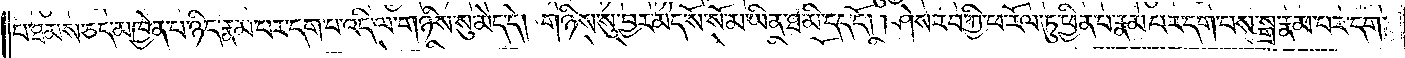པ་ཐམས་ཅད་མཁྱེན་པ་ཉིད་རྣམ་པར་དག་པ་འདི་ལ་གཉིས་སུ་མེད་དེ། གཉིས་སུ་བྱར་མེད་སོ་སོ་མ་ཡིན་ཐ་མི་དད་དོ། །ཤེས་རབ་ཀྱི་ཕ་རོལ་ཏུ་ཕྱིན་པ་རྣམ་པར་དག་པས་སྒྲ་རྣམ་པར་དག་
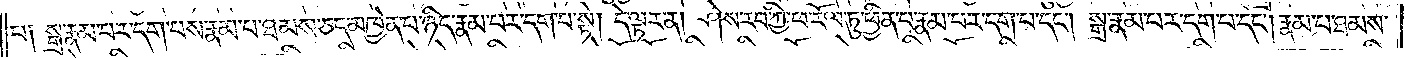པ། སྒྲ་རྣམ་པར་དག་པས་རྣམ་པ་ཐམས་ཅད་མཁྱེན་པ་ཉིད་རྣམ་པར་དག་པ་སྟེ། དེ་ལྟར་ན། ཤེས་རབ་ཀྱི་ཕ་རོལ་ཏུ་ཕྱིན་པ་རྣམ་པར་དག་པ་དང༌། སྒྲ་རྣམ་པར་དག་པ་དང༌། རྣམ་པ་ཐམས་
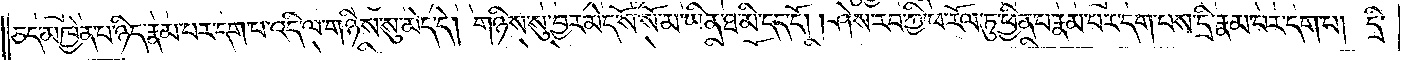ཅད་མཁྱེན་པ་ཉིད་རྣམ་པར་དག་པ་འདི་ལ་གཉིས་སུ་མེད་དེ། གཉིས་སུ་བྱར་མེད་སོ་སོ་མ་ཡིན་ཐ་མི་དད་དོ། །ཤེས་རབ་ཀྱི་ཕ་རོལ་ཏུ་ཕྱིན་པ་རྣམ་པར་དག་པས་དྲི་རྣམ་པར་དག་པ། དྲི་
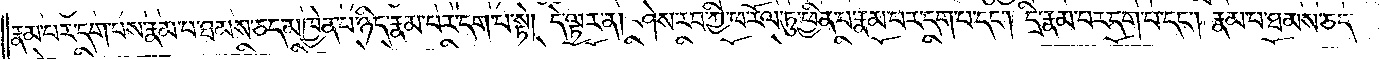རྣམ་པར་དག་པས་རྣམ་པ་ཐམས་ཅད་མཁྱེན་པ་ཉིད་རྣམ་པར་དག་པ་སྟེ། དེ་ལྟར་ན། ཤེས་རབ་ཀྱི་ཕ་རོལ་ཏུ་ཕྱིན་པ་རྣམ་པར་དག་པ་དང༌། དྲི་རྣམ་པར་དག་པ་དང༌། རྣམ་པ་ཐམས་ཅད་
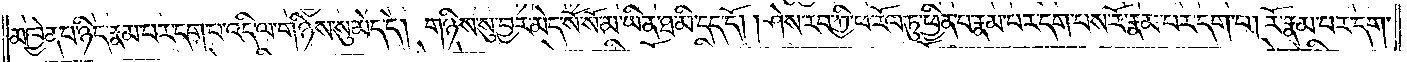མཁྱེན་པ་ཉིད་རྣམ་པར་དག་པ་འདི་ལ་གཉིས་སུ་མེད་དེ། གཉིས་སུ་བྱར་མེད་སོ་སོ་མ་ཡིན་ཐ་མི་དད་དོ། །ཤེས་རབ་ཀྱི་ཕ་རོལ་ཏུ་ཕྱིན་པ་རྣམ་པར་དག་པས་རོ་རྣམ་པར་དག་པ། རོ་རྣམ་པར་དག་
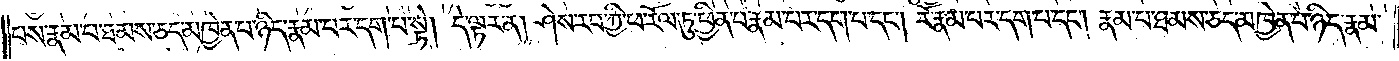པས་རྣམ་པ་ཐམས་ཅད་མཁྱེན་པ་ཉིད་རྣམ་པར་དག་པ་སྟེ། དེ་ལྟར་ན། ཤེས་རབ་ཀྱི་ཕ་རོལ་ཏུ་ཕྱིན་པ་རྣམ་པར་དག་པ་དང༌། རོ་རྣམ་པར་དག་པ་དང༌། རྣམ་པ་ཐམས་ཅད་མཁྱེན་པ་ཉིད་རྣམ་
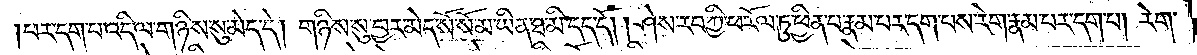པར་དག་པ་འདི་ལ་གཉིས་སུ་མེད་དེ། གཉིས་སུ་བྱར་མེད་སོ་སོ་མ་ཡིན་ཐ་མི་དད་དོ། །ཤེས་རབ་ཀྱི་ཕ་རོལ་ཏུ་ཕྱིན་པ་རྣམ་པར་དག་པས་རེག་རྣམ་པར་དག་པ། རེག་
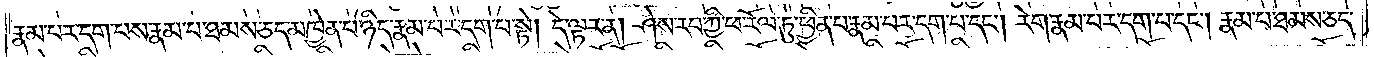རྣམ་པར་དག་པས་རྣམ་པ་ཐམས་ཅད་མཁྱེན་པ་ཉིད་རྣམ་པར་དག་པ་སྟེ། དེ་ལྟར་ན། ཤེས་རབ་ཀྱི་ཕ་རོལ་ཏུ་ཕྱིན་པ་རྣམ་པར་དག་པ་དང༌། རེག་རྣམ་པར་དག་པ་དང༌། རྣམ་པ་ཐམས་ཅད་
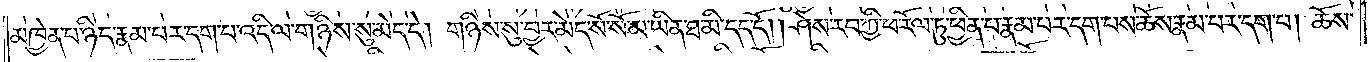མཁྱེན་པ་ཉིད་རྣམ་པར་དག་པ་འདི་ལ་གཉིས་སུ་མེད་དེ། གཉིས་སུ་བྱར་མེད་སོ་སོ་མ་ཡིན་ཐ་མི་དད་དོ། །ཤེས་རབ་ཀྱི་ཕ་རོལ་ཏུ་ཕྱིན་པ་རྣམ་པར་དག་པས་ཆོས་རྣམ་པར་དག་པ། ཆོས་
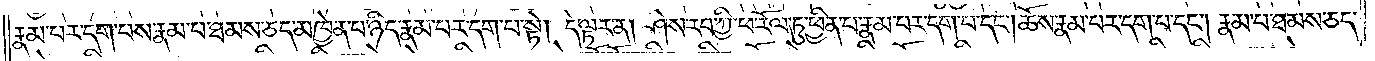རྣམ་པར་དག་པས་རྣམ་པ་ཐམས་ཅད་མཁྱེན་པ་ཉིད་རྣམ་པར་དག་པ་སྟེ། དེ་ལྟར་ན། ཤེས་རབ་ཀྱི་ཕ་རོལ་ཏུ་ཕྱིན་པ་རྣམ་པར་དག་པ་དང༌། ཆོས་རྣམ་པར་དག་པ་དང༌། རྣམ་པ་ཐམས་ཅད་
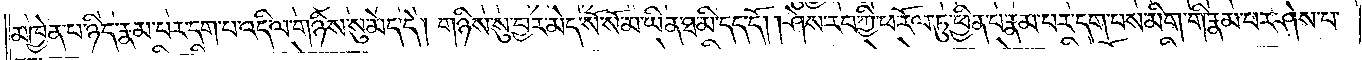མཁྱེན་པ་ཉིད་རྣམ་པར་དག་པ་འདི་ལ་གཉིས་སུ་མེད་དེ། གཉིས་སུ་བྱར་མེད་སོ་སོ་མ་ཡིན་ཐ་མི་དད་དོ། །ཤེས་རབ་ཀྱི་ཕ་རོལ་ཏུ་ཕྱིན་པ་རྣམ་པར་དག་པས་མིག་གི་རྣམ་པར་ཤེས་པ་
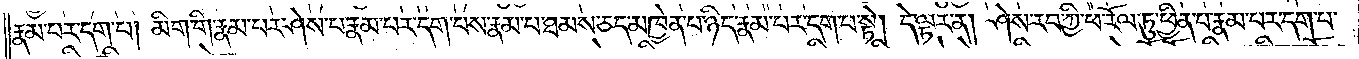རྣམ་པར་དག་པ། མིག་གི་རྣམ་པར་ཤེས་པ་རྣམ་པར་དག་པས་རྣམ་པ་ཐམས་ཅད་མཁྱེན་པ་ཉིད་རྣམ་པར་དག་པ་སྟེ། དེ་ལྟར་ན། ཤེས་རབ་ཀྱི་ཕ་རོལ་ཏུ་ཕྱིན་པ་རྣམ་པར་དག་པ་
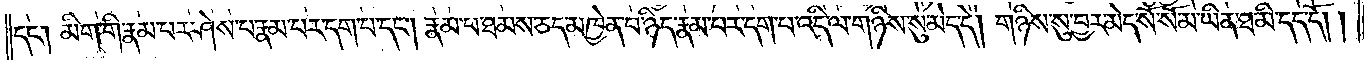དང༌། མིག་གི་རྣམ་པར་ཤེས་པ་རྣམ་པར་དག་པ་དང༌། རྣམ་པ་ཐམས་ཅད་མཁྱེན་པ་ཉིད་རྣམ་པར་དག་པ་འདི་ལ་གཉིས་སུ་མེད་དེ། གཉིས་སུ་བྱར་མེད་སོ་སོ་མ་ཡིན་ཐ་མི་དད་དོ། །
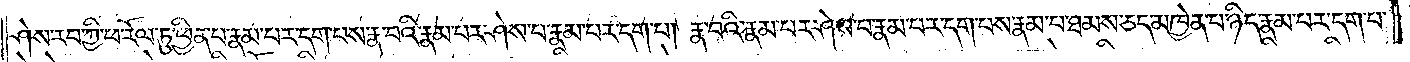ཤེས་རབ་ཀྱི་ཕ་རོལ་ཏུ་ཕྱིན་པ་རྣམ་པར་དག་པས་རྣ་བའི་རྣམ་པར་ཤེས་པ་རྣམ་པར་དག་པ། རྣ་བའི་རྣམ་པར་ཤེས་པ་རྣམ་པར་དག་པས་རྣམ་པ་ཐམས་ཅད་མཁྱེན་པ་ཉིད་རྣམ་པར་དག་པ་
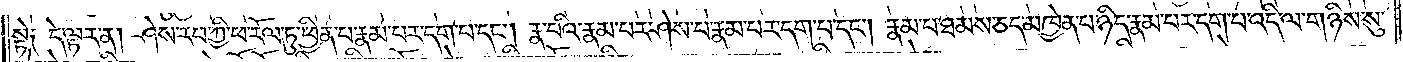སྟེ། དེ་ལྟར་ན། ཤེས་རབ་ཀྱི་ཕ་རོལ་ཏུ་ཕྱིན་པ་རྣམ་པར་དག་པ་དང༌། རྣ་བའི་རྣམ་པར་ཤེས་པ་རྣམ་པར་དག་པ་དང༌། རྣམ་པ་ཐམས་ཅད་མཁྱེན་པ་ཉིད་རྣམ་པར་དག་པ་འདི་ལ་གཉིས་སུ་
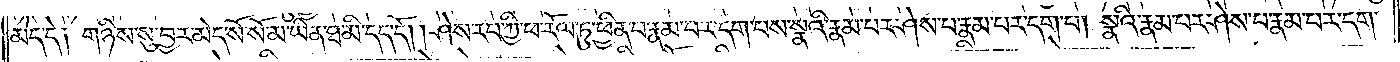མེད་དེ། གཉིས་སུ་བྱར་མེད་སོ་སོ་མ་ཡིན་ཐ་མི་དད་དོ། །ཤེས་རབ་ཀྱི་ཕ་རོལ་ཏུ་ཕྱིན་པ་རྣམ་པར་དག་པས་སྣའི་རྣམ་པར་ཤེས་པ་རྣམ་པར་དག་པ། སྣའི་རྣམ་པར་ཤེས་པ་རྣམ་པར་དག་
